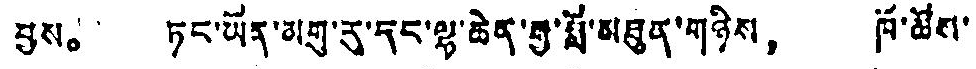བྱས。 ཏང་ཡོན་མགུ་རུ་དང་ལྷ་ཆེན་རྒྱ་བློ་མཐུན་གཉིས， ཁོ་ཚོས་
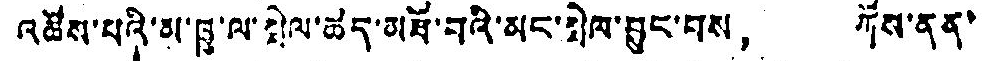འཚེས་པའི་མ་ཁྱུ་ལ་སྤེལ་ཚད་མཐོ་བའི་མང་སྤེལ་བྱུང་བས， ཀོས་ནན་
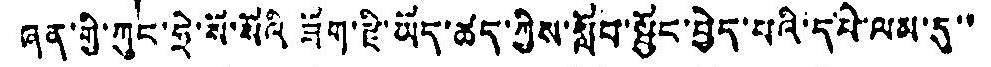ཞན་གྱི་ཀུང་ཧྲེ་སོ་སོའི ཟོག་རྫི་ཡོད་ཚད་ཀྱིས་སློབ་སྦྱོང་བྱེད་པའི་དཔེ་ལམ་དུ་་
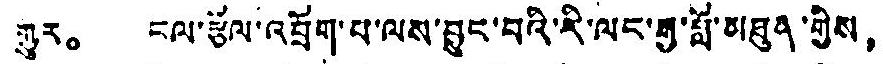གྱུར。 ངལ་རྩོལ་འབྲོག་པ་ལས་བྱུང་བའི་རི་ལང་རྒྱུ་བློ་མཐུན་གྱིས，
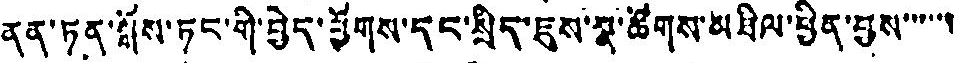ནན་ཏན་སྒོས་ཏང་གི་བྱེད་ཕྱོགས་དང་སྲིད་ཇུས་སྣ་ཚོགས་མཐིལ་བྱིན་བྱས་་་་་་་
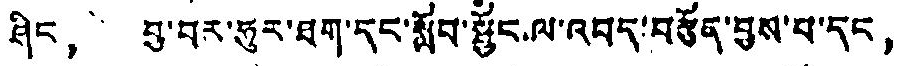ཤིང， བྱ་བར་ཧུར་ཐག་དང་སློབ་སྦྱོང ལ་འབད་བརྩོན་བྱས་པ་དང，
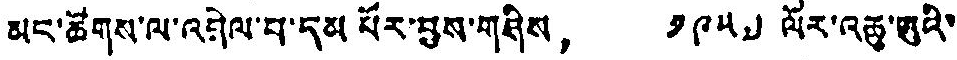མང་ཚོགས་ལ་འབྲེལ་བ་དམ པོར་བྱས་གཤིས， ༡༩༥༧ ལོར་འཆུ་ཨུའི་
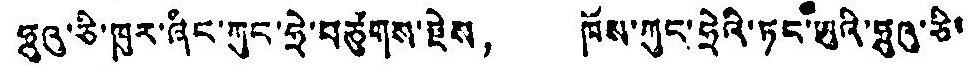ཧྲུའུ་ཅི་ཁུར་ཞིང་ཀུང་ཧྲེ་བཙུགས་རྗེས， ཁོས་ཀུང་ཧྲེའི་ཏང་ཨུའི་ཧྲུའུ་ཅི་
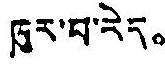ཁུར་བ་རེད。
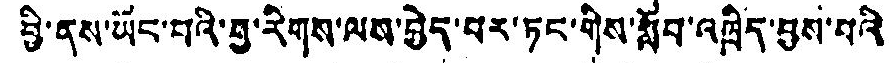ཕྱི་ནས་ཡོང་བའི་རྒྱ་རིགས་ལས་བྱེད་པར་ཏང་གིས་སློབ་འཁྲིད་བྱས་པའི་
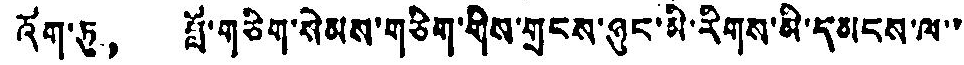འོག་ཏུ， བློ་གཅིག་སེམས་གཅིག་གིས་གྲངས་ཉུང་མི་རིགས་མི་དམངས་ལ་་
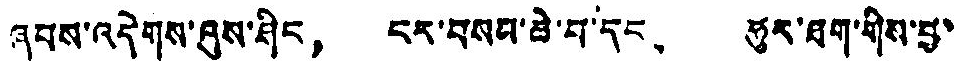ཞབས་འདེགས་ཤུས་ཤིང， ངར་བསམ་ཟེ་བ་དང， ཧུར་ཐག་གིས་བྱ་
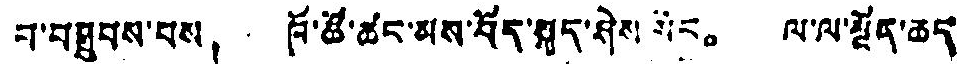བ་བསྒྲུབས་པས， ཁོ་ཚོ་ཚང་མས་བོད་སྐད་ཤེས སོང。 ལ་ལ་སྔོན་ཆད་
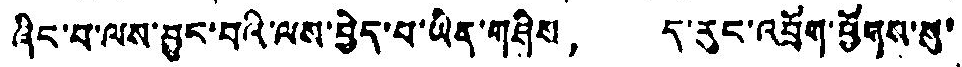ཞིང་པ་ལས་བྱུང་བའི་ལས་བྱེད་པ་ཡིན་གཤིས， ད་རུང་འབྲོག་ཕྱོགས་སུ་
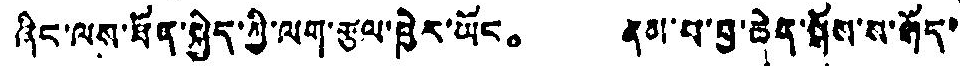ཞིང་ལས་ཐོན་སྐྱེད་ཀྱི་ལག་རྩལ་ཁྱེར་ཡོང。 རྣམ་པ་བྱ་ཆེན་སྒོས་ས་རྒོད་
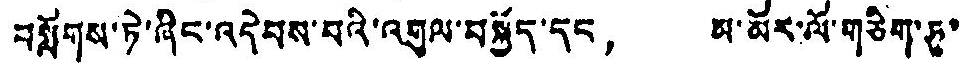བསློགས་ཏེ་ཞིང་འདེབས་པའི་འརྒུལ་བསྐྱོད་དང， མ་མོར་ལོ་གཅིག་ཏུ་
